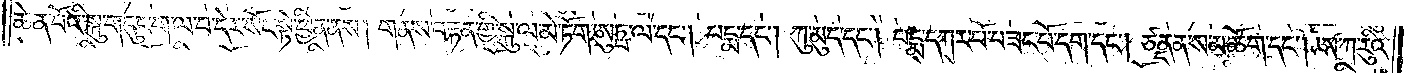ཆེན་པོའི་སྐུ་གདུང་ག་ལ་བ་དེར་སོང་སྟེ་ཕྱིན་ནས། གནས་བརྟན་གྱི་སྐུ་ལ་མེ་ཏོག་ཨུཏྤ་ལ་དང༌། པདྨ་དང༌། ཀུ་མུད་དང༌། པདྨ་དཀར་པོ་བཟང་པོ་དག་དང༌། ཙནྡན་ས་མཆོག་དང༌། ཨ་ཀ་རུའི་
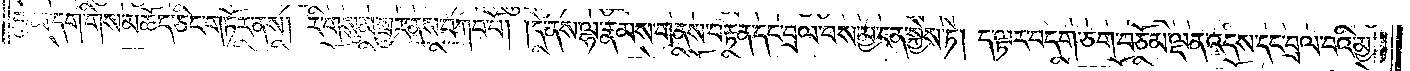ཕྱེ་མ་དག་གིས་མཆོད་ཅིང་གཏོར་ནས། རི་གསུམ་སྦྱར་ནས་བཀབ་བོ། །དེ་ནས་ལྷ་རྣམས་གནས་བརྟན་དང་བྲལ་བས་མྱ་ངན་སྐྱེས་ཏེ། ད་ལྟར་བདག་ཅག་བཅོམ་ལྡན་འདས་དང་བྲལ་བའི་མྱ་
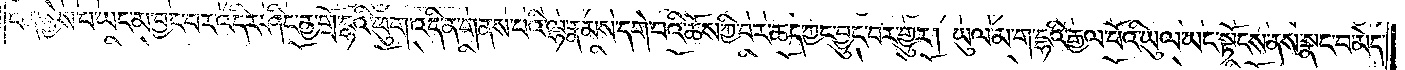ངན་སྐྱེས་པ་ཡང་མ་བྱང་བར་འདིར་ཤིང་ནྱ་གྲོ་དྷའི་ཕུག་འདི་ན་གནས་པའི་ལྷ་རྣམས་དགེ་བའི་ཆོས་ཀྱི་བར་ཆད་ཀྱང་བྱུང་བར་གྱུར། ཡུལ་མ་ག་དྷའི་རྒྱལ་པོའི་ཡུལ་ཡང་སྟོང་ནས་སྣང་བ་མེད་
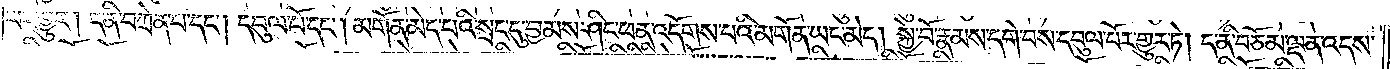པར་གྱུར། ད་ནི་བཀྲེན་པ་དང༌། དབུལ་པོ་དང༌། མགོན་མེད་པའི་སྲང་དུ་བྱམས་ཤིང་ཕན་འདོགས་པའི་མགོན་ཡང་མེད། སྐྱེ་བོ་རྣམས་དགེ་བས་དབུལ་པོར་གྱུར་ཏེ། ད་ནི་བཅོམ་ལྡན་འདས་
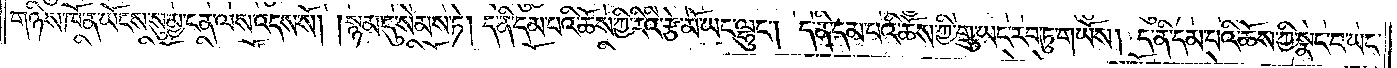གཉིས་ཁོ་ན་ཡོངས་སུ་མྱ་ངན་ལས་འདས་སོ། །སྙམ་དུ་སེམས་ཏེ། ད་ནི་དམ་པའི་ཆོས་ཀྱི་རིའི་རྩེ་མོ་ཡང་ལྷུང༌། ད་ནི་དམ་པའི་ཆོས་ཀྱི་གྲུ་ཡང་རབ་ཏུ་གཡོས། ད་ནི་དམ་པའི་ཆོས་ཀྱི་སྣང་བ་ཡང་
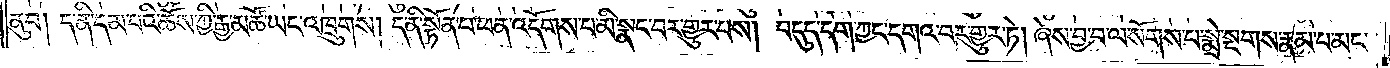ནུབ། ད་ནི་དམ་པའི་ཆོས་ཀྱི་རྒྱ་མཚོ་ཡང་འཁྲུགས། ད་ནི་སྟོན་པ་ཕན་འདོགས་པ་མི་སྣང་བར་གྱུར་པས། བདུད་དག་ཀྱང་དགའ་བར་གྱུར་ཏེ། ཞེས་བྱ་བ་ལ་སོགས་པ་སྨྲེ་སྔགས་རྣམ་པ་མང་
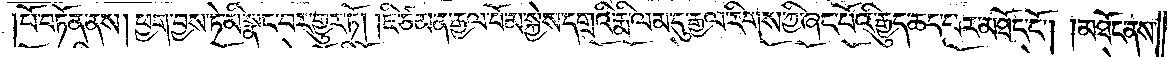།པོ་བཏོན་ནས། ཕྱག་བྱས་ཏེ་མི་སྣང་བར་གྱུར་ཏོ། །ཇི་ཙམ་ན་རྒྱལ་པོ་མ་སྐྱེས་དགྲའི་རྨི་ལམ་དུ་རྒྱལ་རིགས་ཀྱི་ཞང་པོའི་རྒྱུད་ཆད་པར་མཐོང་ངོ༌། །མཐོང་ནས་
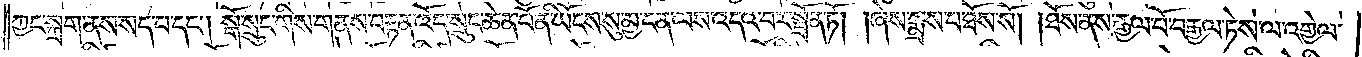ཀྱང་སྐྲག་ནས་སད་པ་དང༌། སྒོ་སྲུང་གིས་གནས་བརྟན་འོད་སྲུང་ཆེན་པོ་ནི་ཡོངས་སུ་མྱ་ངན་ལས་འདའ་བར་སྦྲོན་ཏོ། །ཞེས་སྨྲས་པ་ཐོས་སོ། །ཐོས་ནས་རྒྱལ་པོ་བརྒྱལ་ཏེ་ས་ལ་འགྱེལ་
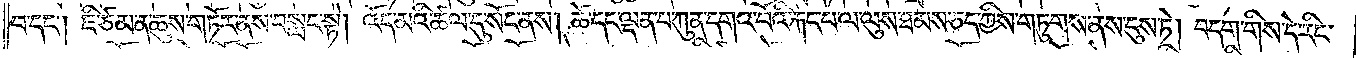བ་དང༌། ཇི་ཙམ་ན་ཆུས་གཏོར་ནས་བསླང་སྟེ། འོད་མའི་ཚལ་དུ་སོང་ནས། ཚེ་དང་ལྡན་པ་ཀུན་དགའ་བོའི་རྐང་པ་ལ་ལུས་ཐམས་ཅད་ཀྱིས་གཏུགས་ནས་དུས་ཏེ། བདག་གིས་དེ་རིང་
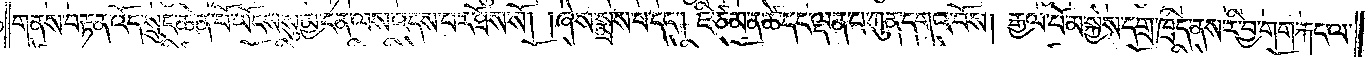གནས་བརྟན་འོད་སྲུང་ཆེན་པོ་ཡོངས་སུ་མྱ་ངན་ལས་འདས་པར་ཐོས་སོ། །ཞེས་སྨྲས་པ་དང༌། ཇི་ཙམ་ན་ཚེ་དང་ལྡན་པ་ཀུན་དགའ་བོས། རྒྱལ་པོ་མ་སྐྱེས་དགྲ་ཁྲིད་ནས་རི་བྱ་གག་རྐང་ལ་
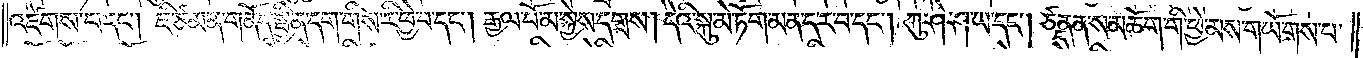འཛེགས་པ་དང༌། ཇི་ཙམ་ན་གནོད་སྦྱིན་དག་གིས་རི་ཕྱེ་བ་དང༌། རྒྱལ་པོ་མ་སྐྱེས་དགྲས། དེའི་སྐུ་མེ་ཏོག་མན་ད་ར་བ་དང༌། ཀུ་ཤེ་ཤ་ཡ་དང༌། ཙནྡན་ས་མཆོག་གི་ཕྱེ་མས་གཡོགས་པ་
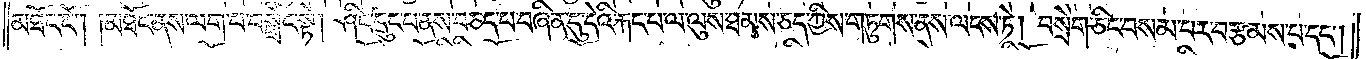མཐོང་ངོ༌། །མཐོང་ནས་ལག་པ་བསྒྲེང་སྟེ། ཤིང་དྲུང་པ་ནས་བཅད་པ་བཞིན་དུ་དེའི་རྐང་པ་ལ་ལུས་ཐམས་ཅད་ཀྱིས་གཏུགས་ནས་ལངས་ཏེ། བསྲེག་ཅིང་བསམ་པར་བརྩམས་པ་དང༌།
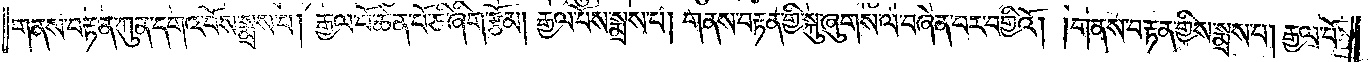གནས་བརྟན་ཀུན་དགའ་བོས་སྨྲས་པ། རྒྱལ་པོ་ཆེན་པོ་ཅི་ཞིག་རྩོམ། རྒྱལ་པོས་སྨྲས་པ། གནས་བརྟན་གྱི་སྐུ་ཞུགས་ལ་བཞེན་པར་བགྱིའོ། །གནས་བརྟན་གྱིས་སྨྲས་པ། རྒྱལ་པོ་
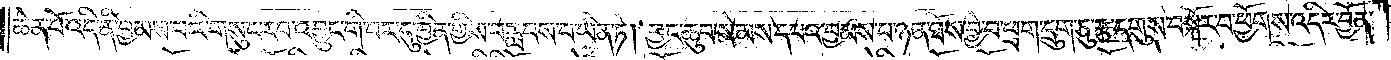ཆེན་པོ་འདི་ནི་བྱམས་པའི་གསུང་རབ་འབྱུང་གི་བར་དུ་བྱིན་གྱིས་བརླབས་པ་ཡིན་ཏེ། བྱང་ཆུབ་སེམས་དཔའ་བྱམས་པ་ཉན་ཐོས་བྱེ་བ་ཕྲག་དྲུག་ཅུ་རྩ་དགུས་བསྐོར་བ་ཕྱོགས་འདིར་བྱོན་
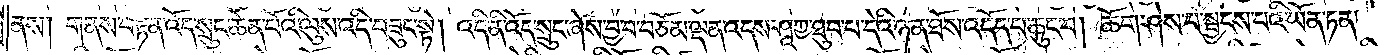ནས། གནས་བརྟན་འོད་སྲུང་ཆེན་པོའི་ལུས་འདི་བཟུང་སྟེ། འདི་ནི་འོད་སྲུང་ཞེས་བྱ་བ་བཅོམ་ལྡན་འདས་ཤཱཀྱ་ཐུབ་པ་དེའི་ཉན་ཐོས་འདོད་པ་ཆུང་བ། ཆོག་ཤེས་པ་སྦྱངས་པའི་ཡོན་ཏན་
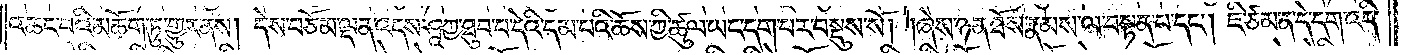འཆང་བའི་མཆོག་ཏུ་གྱུར་ནས། དེས་བཅོམ་ལྡན་འདས་ཤཱཀྱ་ཐུབ་པ་དེའི་དམ་པའི་ཆོས་ཀྱི་ཚུལ་ཡང་དག་པར་བསྡུས་སོ། །ཞེས་ཉན་ཐོས་རྣམས་ལ་བསྟན་པ་དང༌། ཇི་ཙམ་ན་དེ་དག་འདི་
